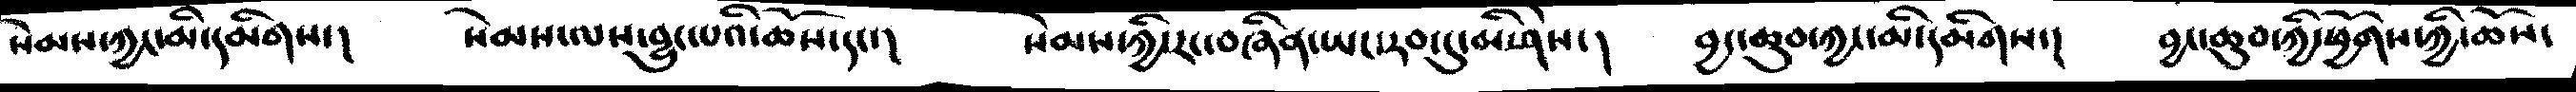སེམས་ཀྱང་མི་དམིགས་།   སེམས་ལས་བྱུང་པའི་ཆོས་དང་།   སེམས་ཀྱི་རང་བཞིན་ཡང་རབ་དུ་མི་ཤེས་།   བྱང་ཆུབ་ཀྱང་མི་དམིགས་།   བྱང་ཆུབ་ཀྱི་ཕྱོགས་ཀྱི་ཆོས་
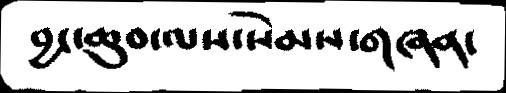བྱང་ཆུབ་ལས་སེམས་གཞན་
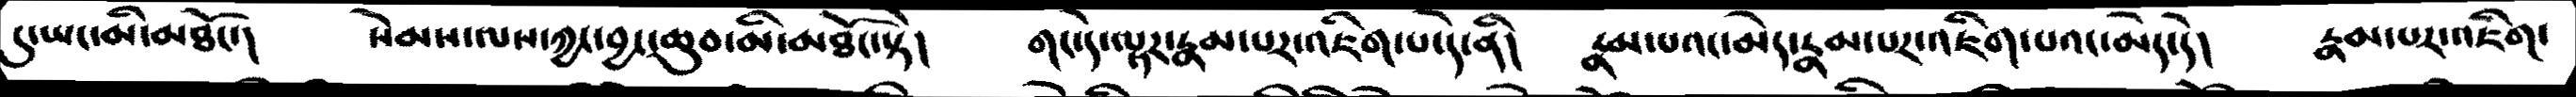དུ་ཡང་མི་མཐོང་།    སེམས་ལས་ཀྱང་བྱང་ཆུབ་མི་མཐོང་སྟེ།   གང་དེ་ལྟར་རྣམ་པར་འཇིག་པ་དེ་ནི།   རྣམ་པའང་མེད་རྣམ་པར་འཇིག་པའང་མེད་དེ།   རྣམ་པར་འཇིག་
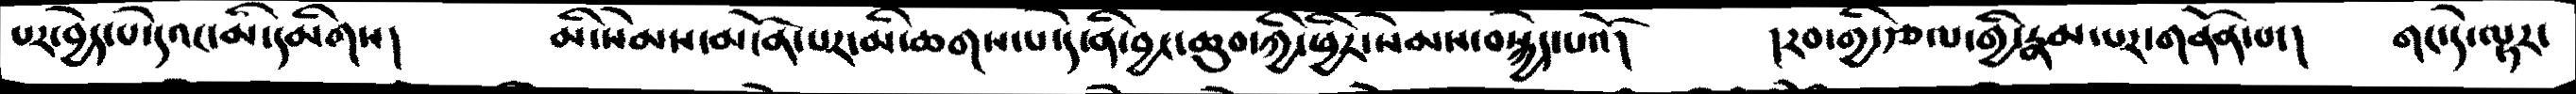པར་བྱེད་པ་དེའང་མི་དམིགས།     མི་སེམས་མངོན་པར་མི་ཆགས་པ་དེ་ནི་བྱང་ཆུབ་ཀྱི་ཕྱིར་སེམས་བསྐྱེད་པའོ།      །རབ་གྱི་རྩལ་གྱི་རྣམ་པར་གནོན་པ་།   གང་དེ་ལྟར་
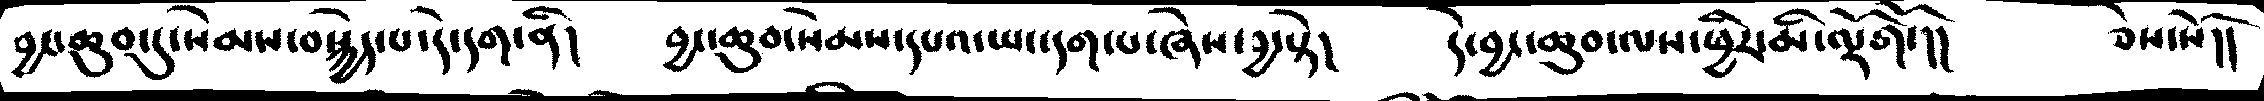བྱང་ཆུབ་དུ་སེམས་བསྐྱེད་པ་དེ་དག་ནི།    བྱང་ཆུབ་སེམས་དཔའ་ཡང་དག་པ་ཞེས་བྱ་སྟེ།      དེ་བྱང་ཆུབ་ལས་ཕྱིར་མི་ལྡོགོ་།།     ཅེས་སོ།།
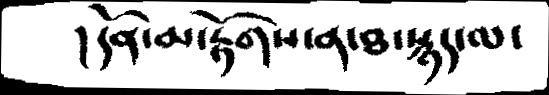།དོན་མ་རྟོགས་མ་ཐ་སྙད་ལ་
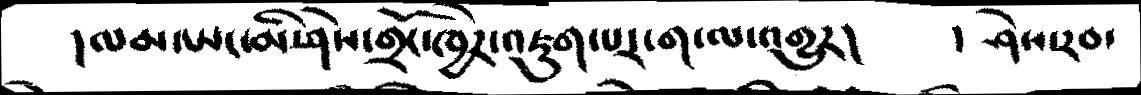།ལམ་ཡང་མི་ཤེས་གྲོང་ཁྱེར་འཇུག་པར་ག་ལ་འགྱུར།   ། ཤེས་རབ་
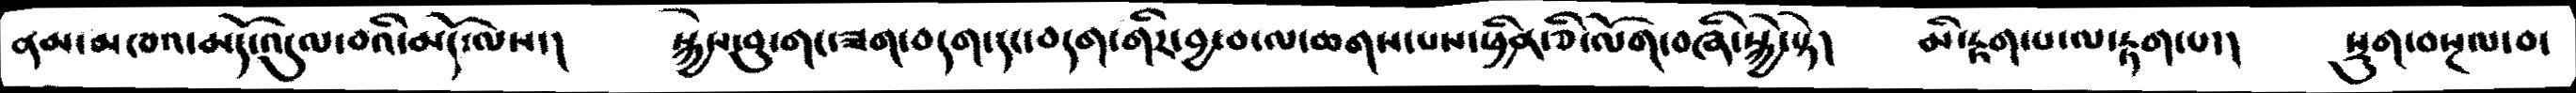ནམ་མཁའ་མདོ་འདུལ་བའི་མདོ་ལས་།  སྐྱེ་བུ་གང་ཟག་བདག་དང་བདག་གིར་བྱ་བ་ལ་ཆགས་པས་ཕྱིན་ཅི་ལོག་བཞི་སྐྱེ་སྟེ།  མི་རྟག་པ་ལ་རྟག་པ་།   སྡུག་བསྔལ་བ་
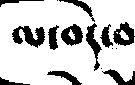ལ་བདེ་བ
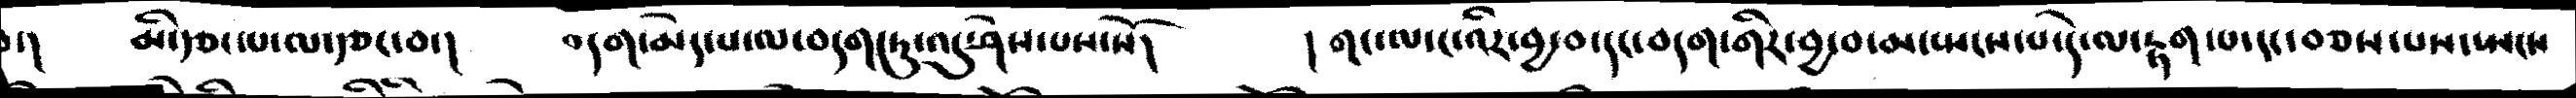་།  མི་རྩང་པ་ལ་རྩང་བ་།   བདག་མེད་པ་ལ་བདག་ཏུ་འདུ་ཞེས་པས་སོ།       ། གང་ལ་ང་འིར་བྱ་བ་དང་བདག་གིར་བྱ་བ་མ་སྤངས་པ་དེ་རྟག་པ་དང་བཅས་པས་སྤངས
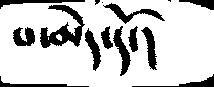པ་མེད་དོ་།
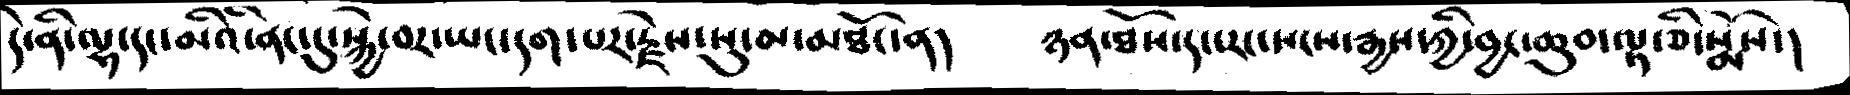དེ་ནི་ལྷ་དང་མིའི་ནང་དུ་སྐྱེ་བར་ཡང་དག་པར་རྗེས་སུ་མ་མཐོང་ན།   ཉན་ཐོས་དང་རང་སངས་རྒྱས་ཀྱི་བྱང་ཆུབ་ལྟ་ཅི་སྨོས་།
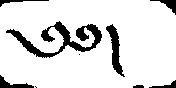༄༅།
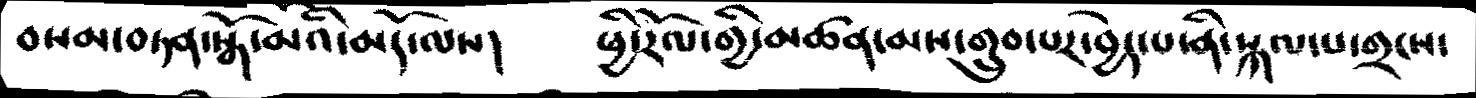བསམ་བཏན་སྒོ་མའི་མདོ་ལས།     ཕྱི་རོལ་གྱི་མཚན་མས་གྲུབ་པར་བྱེད་པ་ནི་སྐལ་པ་གྲངས་
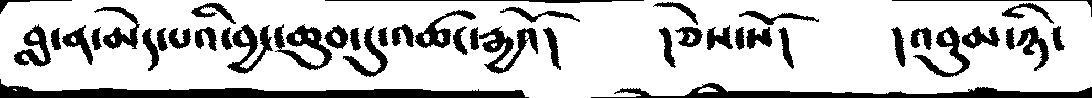བླ་ན་མེད་པའི་བྱང་ཆུབ་དུ་འཚང་རྒྱའོ།  །ཅེས་སོ།  །འབུམ་ཉི་
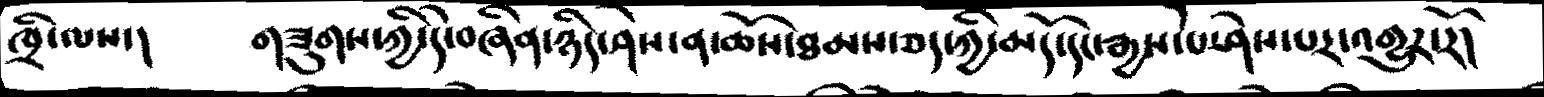ཁྲི་ལས་།   གཟུགས་ཀྱི་དེ་བཞིན་ཉིད་ཤེས་ན་ཆོས་ཐམས་ཅད་ཀྱི་མདོ་དང་རྒྱས་པ་ཤེས་པར་འགྱུར་རོ།
